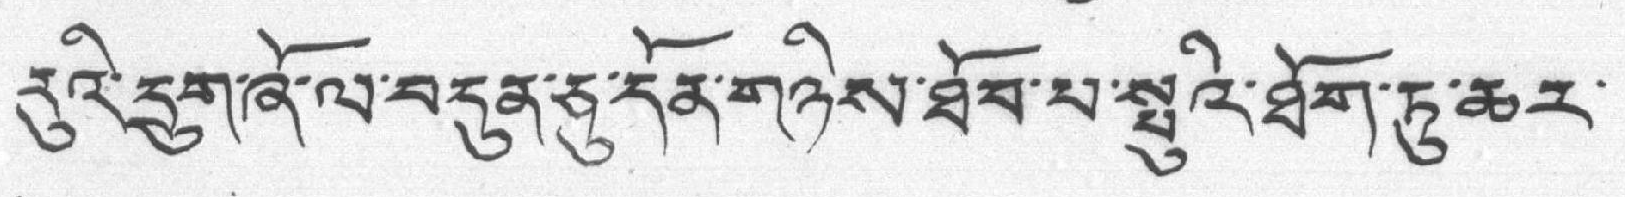རུའི་དྲུག་ཞོ་ལ་བདུན་ཅུ་དོན་གཉིས་ཐོབ་པ་སྤུའི་ཐོག་ཏུ་ཆར་
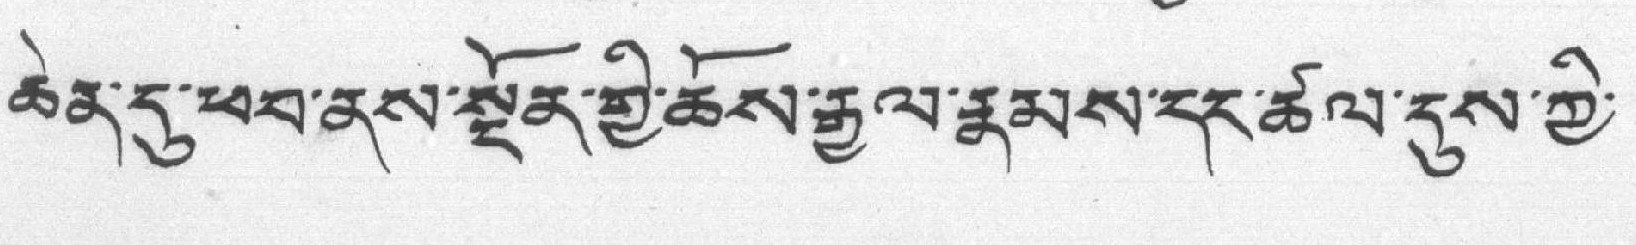ཆེན་དུ་ཕབ་ནས་སྔོན་གྱི་ཆོས་རྒྱལ་རྣམས་དང་ཚལ་དུས་ཀྱི་
